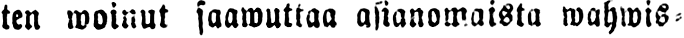ten woinut saawuttaa asianomaista wahwis-
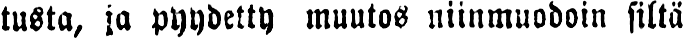tusta, ja pyydetty muutos niinmuodoin siltä
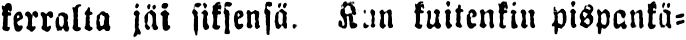kerralta jäi siksensä. Kun kuitenkin pispankä-
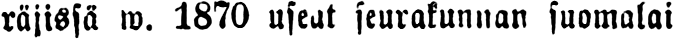räjissä w. 1870 useat seurakunnan suomalai
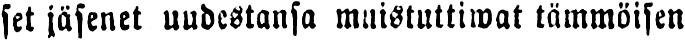set jäsenet uudestansa muistuttiwat tämmöisen
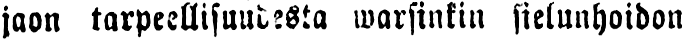jaon tarpeellisuudesta warsinkin sielunhoidon
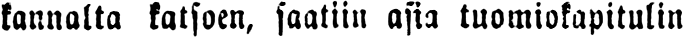kannalta katsoen, saatiin asia tuomiokapitulin
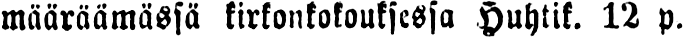määräämässä kirkonkokouksessa Huhtik. 12 p.
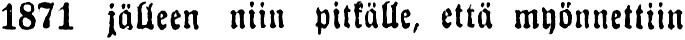1871 jälleen niin pitkälle, että myönnettiin
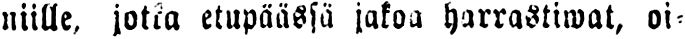niille, jotka etupäässä jakoa harrastiwat, oi-
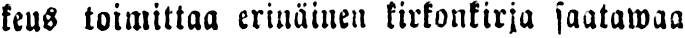keus toimittaa erinäinen kirkonkirja saatawaa
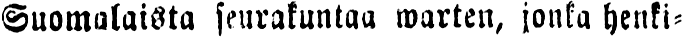Suomalaista seurakuntaa warten, jonka henki-
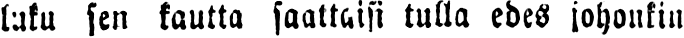luku sen kautta saattaisi tulla edes johonkin
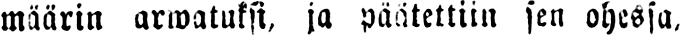määrin arwatuksi, ja päätettiin sen ohessa,
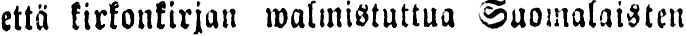että kirkonkirjan walmistuttua Suomalaisten
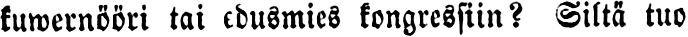kuwernööri tai edusmies kongressiin? Siltä tuo
